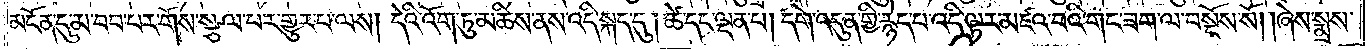མངོན་དུ་མ་བབ་པར་གོས་སྩལ་པར་གྱུར་པ་ལས། དེའི་འོག་ཏུ་མཆིས་ནས་འདི་སྐད་དུ། ཚེ་དང་ལྡན་པ། དགེ་འདུན་གྱི་རྙེད་པ་འདི་ལྟར་མཛའ་བའི་གང་ཟག་ལ་བསྔོས་སོ། །ཞེས་སྨྲས་
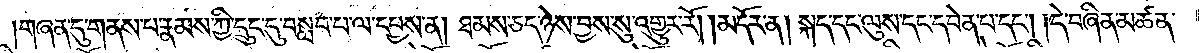།གཞན་དུ་གནས་པ་རྣམས་ཀྱི་དྲུང་དུ་བསླབ་པ་ལ་དཔྱས་ན། ཐམས་ཅད་ཉེས་བྱས་སུ་འགྱུར་རོ། །མདོར་ན། སྐད་དང་ལུས་དང་དབེན་པ་དང༌། །དེ་བཞིན་མཚན་
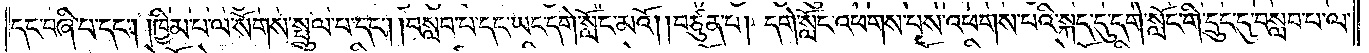དང་བཞི་པ་དང༌། །ཁྱིམ་པ་ལ་སོགས་སྤྲུལ་པ་དང༌། །བསླབ་པ་དང་ཡང་དགེ་སློང་མའོ། །བཙུན་པ། དགེ་སློང་འཕགས་པས་འཕགས་པའི་སྐད་དུ་དགེ་སློང་གི་དྲུང་དུ་བསླབ་པ་ལ་
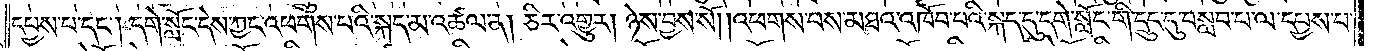དཔྱས་པ་དང༌། དགེ་སློང་དེས་ཀྱང་འཕགས་པའི་སྐད་མ་འཚལ་ན། ཅིར་འགྱུར། ཉེས་བྱས་སོ། །འཕགས་པས་མཐའ་འཁོབ་པའི་སྐད་དུ་དགེ་སློང་གི་དྲུང་དུ་བསླབ་པ་ལ་དཔྱས་པ་
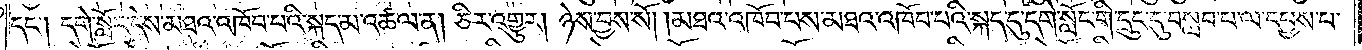དང༌། དགེ་སློང་དེས་མཐའ་འཁོབ་པའི་སྐད་མ་འཚལ་ན། ཅིར་འགྱུར། ཉེས་བྱས་སོ། །མཐའ་འཁོབ་པས་མཐའ་འཁོབ་པའི་སྐད་དུ་དགེ་སློང་གི་དྲུང་དུ་བསླབ་པ་ལ་དཔྱས་པ་
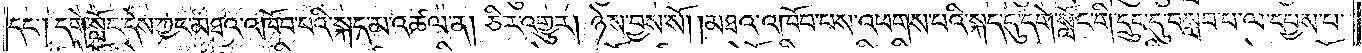དང༌། དགེ་སློང་དེས་ཀྱང་མཐའ་འཁོབ་པའི་སྐད་མ་འཚལ་ན། ཅིར་འགྱུར། ཉེས་བྱས་སོ། །མཐའ་འཁོབ་པས་འཕགས་པའི་སྐད་དུ་དགེ་སློང་གི་དྲུང་དུ་བསླབ་པ་ལ་དཔྱས་པ་
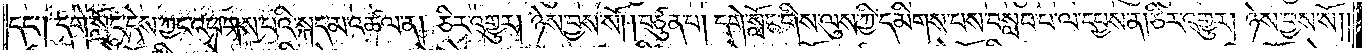དང༌། དགེ་སློང་དེས་ཀྱང་འཕགས་པའི་སྐད་མ་འཚལ་ན། ཅིར་འགྱུར། ཉེས་བྱས་སོ། །བཙུན་པ། དགེ་སློང་གིས་ལུས་ཀྱི་དམིགས་པས་བསླབ་པ་ལ་དཔྱས་ན། ཅིར་འགྱུར། ཉེས་བྱས་སོ༎
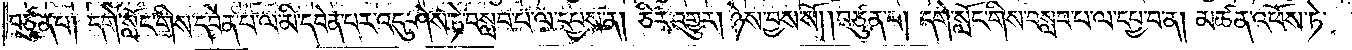བཙུན་པ། དགེ་སློང་གིས་དབེན་པ་ལ་མི་དབེན་པར་འདུ་ཤེས་ཏེ་བསླབ་པ་ལ་དཔྱས་ན། ཅིར་འགྱུར། ཉེས་བྱས་སོ། །བཙུན་པ། དགེ་སློང་གིས་བསླབ་པ་ལ་དཔྱ་བ་ན། མཚན་འཕོས་ཏེ་
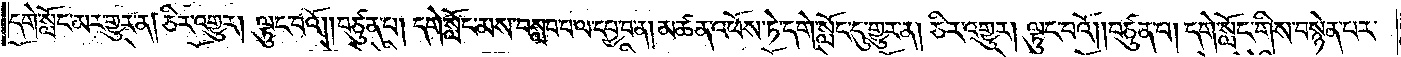དགེ་སློང་མར་གྱུར་ན། ཅིར་འགྱུར། ལྟུང་བའོ། །བཙུན་པ། དགེ་སློང་མས་བསླབ་པ་ལ་དཔྱ་བ་ན། མཚན་འཕོས་ཏེ་དགེ་སློང་དུ་གྱུར་ན། ཅིར་འགྱུར། ལྟུང་བའོ། །བཙུན་པ། དགེ་སློང་གིས་བསྙེན་པར་
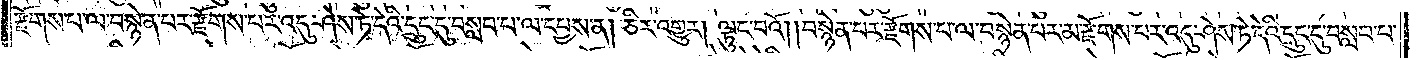རྫོགས་པ་ལ་བསྙེན་པར་རྫོགས་པར་འདུ་ཤེས་ཏེ་དེའི་དྲུང་དུ་བསླབ་པ་ལ་དཔྱས་ན། ཅིར་འགྱུར། ལྟུང་བའོ། །བསྙེན་པར་རྫོགས་པ་ལ་བསྙེན་པར་མ་རྫོགས་པར་འདུ་ཤེས་ཏེ་དེའི་དྲུང་དུ་བསླབ་པ་
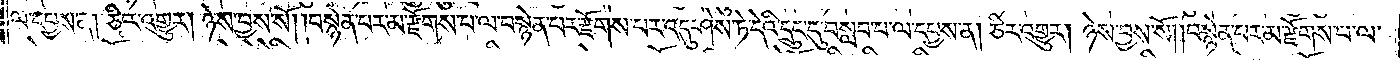ལ་དཔྱས་ན། ཅིར་འགྱུར། ཉེས་བྱས་སོ། །བསྙེན་པར་མ་རྫོགས་པ་ལ་བསྙེན་པར་རྫོགས་པར་འདུ་ཤེས་ཏེ་དེའི་དྲུང་དུ་བསླབ་པ་ལ་དཔྱས་ན། ཅིར་འགྱུར། ཉེས་བྱས་སོ། །བསྙེན་པར་མ་རྫོགས་པ་ལ་
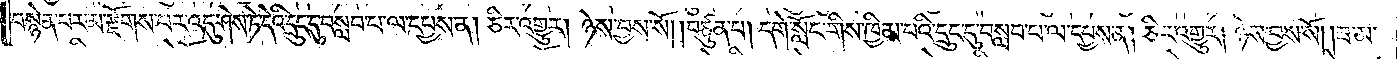བསྙེན་པར་མ་རྫོགས་པར་འདུ་ཤེས་ཏེ་དེའི་དྲུང་དུ་བསླབ་པ་ལ་དཔྱས་ན། ཅིར་འགྱུར། ཉེས་བྱས་སོ། །བཙུན་པ། དགེ་སློང་གིས་ཁྱིམ་པའི་དྲུང་དུ་བསླབ་པ་ལ་དཔྱས་ན། ཅིར་འགྱུར། ཉེས་བྱས་སོ། །ཟ་མ་
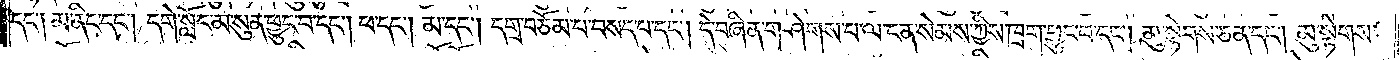དང༌། མ་ནིང་དང༌། དགེ་སློང་མ་སུན་ཕྱུང་བ་དང༌། ཕ་དང༌། མ་དང༌། དགྲ་བཅོམ་པ་བསད་པ་དང༌། དེ་བཞིན་གཤེགས་པ་ལ་ངན་སེམས་ཀྱིས་ཁྲག་ཕྱུང་བ་དང༌། མུ་སྟེགས་ཅན་དང༌། མུ་སྟེགས་
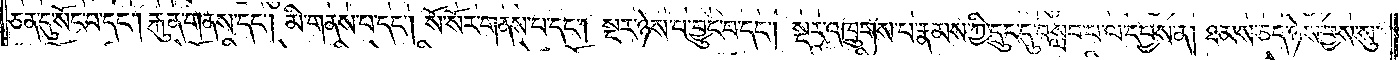ཅན་དུ་སོང་བ་དང༌། རྐུན་གནས་དང༌། མི་གནས་པ་དང༌། སོ་སོར་གནས་པ་དང༌། སྔར་ཉེས་པ་བྱུང་བ་དང༌། སྔར་འཁྲུགས་པ་རྣམས་ཀྱི་དྲུང་དུ་བསླབ་པ་ལ་དཔྱས་ན། ཐམས་ཅད་ཉེས་བྱས་སུ་
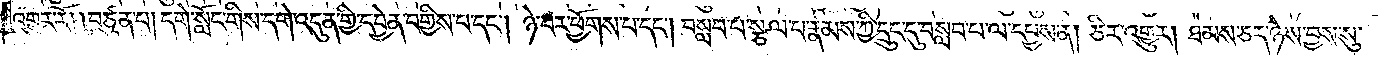འགྱུར་རོ། །བཙུན་པ། དགེ་སློང་གིས་དགེ་འདུན་གྱི་དབྱེན་བགྱིས་པ་དང༌། ཉེ་བར་ཕྱོགས་པ་དང༌། བསླབ་པ་སྩལ་པ་རྣམས་ཀྱི་དྲུང་དུ་བསླབ་པ་ལ་དཔྱས་ན། ཅིར་འགྱུར། ཐམས་ཅད་ཉེས་བྱས་སུ་
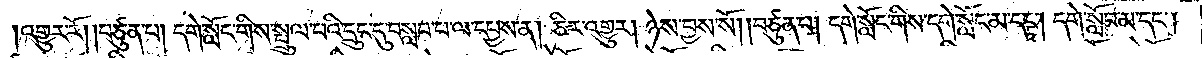།འགྱུར་རོ། །བཙུན་པ། དགེ་སློང་གིས་སྤྲུལ་པའི་དྲུང་དུ་བསླབ་པ་ལ་དཔྱས་ན། ཅིར་འགྱུར། ཉེས་བྱས་སོ། །བཙུན་པ། དགེ་སློང་གིས་དགེ་སློང་མ་དང༌། དགེ་སློབ་མ་དང༌།
